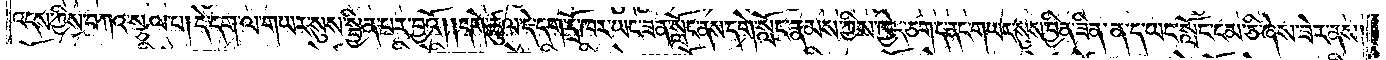འདས་ཀྱིས་བཀའ་སྩལ་པ། དེ་དག་ལ་གཡར་སུས་སྦྱིན་པར་བྱའོ། །དགེ་ཚུལ་དེ་དག་དྲོ་ཁར་ཡང་ཟན་སློང་ནས་དགེ་སློང་རྣམས་ཀྱིས་ཁྱེད་ཅག་ད་ནང་གཡར་སུས་བྱིན་ཟིན་ན་ད་ཡང་སློང་ངམ་ཅི་ཞེས་ཟེར་ནས།
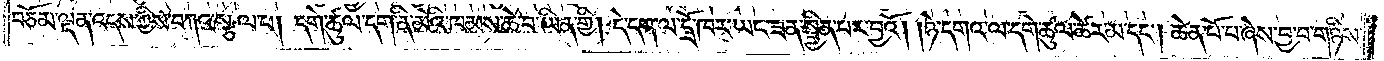བཅོམ་ལྡན་འདས་ཀྱིས་བཀའ་སྩལ་པ། དགེ་ཚུལ་དག་ནི་མེའི་ཁམས་ཆེ་བ་ཡིན་གྱི། དེ་དག་ལ་དྲོ་ཁར་ཡང་ཟན་སྦྱིན་པར་བྱའོ། །ཉེ་དགའ་ལ་དགེ་ཚུལ་ཚེར་མ་དང༌། ཆེན་པོ་པ་ཞེས་བྱ་བ་གཉིས་
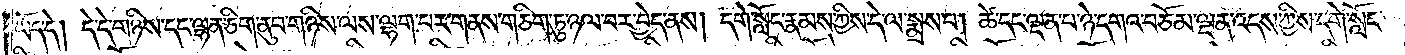ཡོད་དེ། དེ་དེ་གཉིས་དང་ལྷན་ཅིག་ནུབ་གཉིས་ལས་ལྷག་པར་གནས་གཅིག་ཏུ་ཉལ་བར་བྱེད་ནས། དགེ་སློང་རྣམས་ཀྱིས་དེ་ལ་སྨྲས་པ། ཚེ་དང་ལྡན་པ་ཉེ་དགའ་བཅོམ་ལྡན་འདས་ཀྱིས་དགེ་སློང་
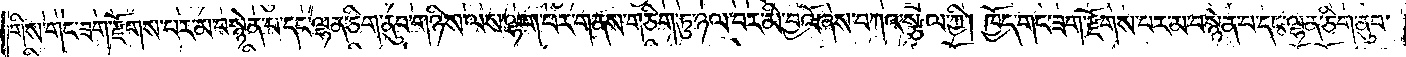གིས་གང་ཟག་རྫོགས་པར་མ་བསྙེན་པ་དང་ལྷན་ཅིག་ནུབ་གཉིས་ལས་ལྷག་པར་གནས་གཅིག་ཏུ་ཉལ་བར་མི་བྱའོ་ཞེས་བཀའ་སྩལ་གྱི། ཁྱོད་གང་ཟག་རྫོགས་པར་མ་བསྙེན་པ་དང་ལྷན་ཅིག་ནུབ་
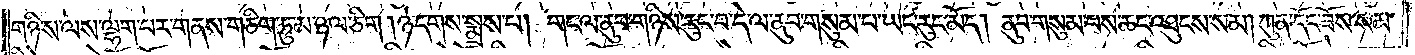གཉིས་ལས་ལྷག་པར་གནས་གཅིག་ཏུ་མ་ཉལ་ཅིག །ཉེ་དགས་སྨྲས་པ། གང་ལ་ནུབ་གཉིས་རུང་བ་དེ་ལ་ནུབ་གསུམ་པ་ཡང་རུང་མོད། ནུབ་གསུམ་པས་ཆང་འཐུངས་སམ། ཀུན་དོང་ཟོས་སམ་
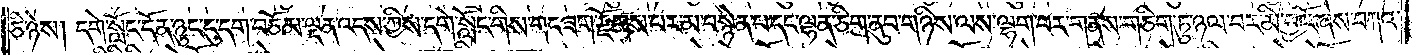ཅི་ཉེས། དགེ་སློང་དོན་ཉུང་ངུ་དག་བཅོམ་ལྡན་འདས་ཀྱིས་དགེ་སློང་གིས་གང་ཟག་རྫོགས་པར་མ་བསྙེན་པ་དང་ལྷན་ཅིག་ནུབ་གཉིས་ལས་ལྷག་པར་གནས་གཅིག་ཏུ་ཉལ་བར་མི་བྱའོ་ཞེས་བཀའ་
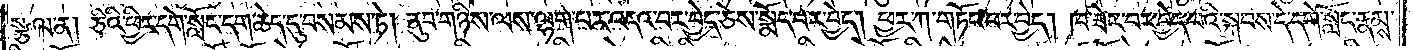སྩལ་ན། ཅིའི་ཕྱིར་དགེ་སློང་དག་ཆེད་དུ་བསམས་ཏེ། ནུབ་གཉིས་ལས་ལྷག་པར་འདའ་བར་བྱེད་ཅེས་སྨོད་པར་བྱེད། ཕྱར་ཀ་གཏོང་བར་བྱེད། ཁ་ཟེར་བར་བྱེད་པའི་སྐབས་དེ་དགེ་སློང་རྣམས་
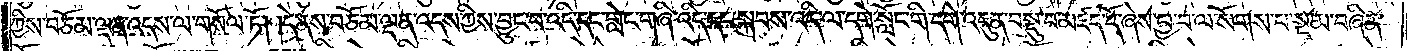ཀྱིས་བཅོམ་ལྡན་འདས་ལ་གསོལ་ཏོ། །དེ་ནས་བཅོམ་ལྡན་འདས་ཀྱིས་བྱུང་བ་འདི་དང་གླེང་གཞི་འདི་དང་སྐབས་འདི་ལ་དགེ་སློང་གི་དགེ་འདུན་བསྡུ་བ་མཛད་དོ་ཞེས་བྱ་བ་ལ་སོགས་པ་སྔ་མ་བཞིན་
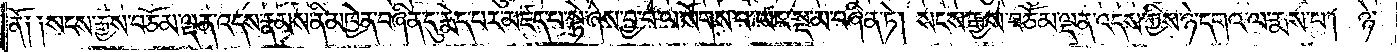ནོ༑ ༑སངས་རྒྱས་བཅོམ་ལྡན་འདས་རྣམས་ནི་མཁྱེན་བཞིན་དུ་རྨེད་པར་མཛད་པ་སྟེ་ཞེས་བྱ་བ་ལ་སོགས་པ་ཡང་སྔ་མ་བཞིན་ཏེ། སངས་རྒྱས་བཅོམ་ལྡན་འདས་ཀྱིས་ཉེ་དགའ་ལ་རྨས་པ། ཉེ་
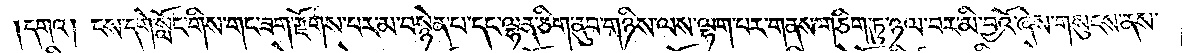དགའ། ངས་དགེ་སློང་གིས་གང་ཟག་རྫོགས་པར་མ་བསྙེན་པ་དང་ལྷན་ཅིག་ནུབ་གཉིས་ལས་ལྷག་པར་གནས་གཅིག་ཏུ་ཉལ་བར་མི་བྱའོ་ཞེས་གསུངས་ནས་
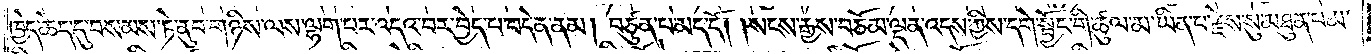ཁྱེད་ཆེད་དུ་བསམས་ཏེ་ནུབ་གཉིས་ལས་ལྷག་པར་འདའ་བར་བྱེད་པ་བདེན་ནམ། བཙུན་པ་མད་དོ། །སངས་རྒྱས་བཅོམ་ལྡན་འདས་ཀྱིས་དགེ་སྦྱོང་གི་ཚུལ་མ་ཡིན་པ་རྗེས་སུ་མཐུན་པ་མ་
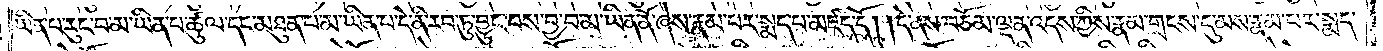ཡིན་པ་རུང་བ་མ་ཡིན་པ་ཚུལ་དང་མཐུན་པ་མ་ཡིན་པ་དེ་ནི་རབ་ཏུ་བྱུང་བས་བྱ་བ་མ་ཡིན་ནོ་ཞེས་རྣམ་པར་སྨད་པ་མཛད་དོ། །དེ་ནས་བཅོམ་ལྡན་འདས་ཀྱིས་རྣམ་གྲངས་དུ་མས་རྣམ་པར་སྨད་
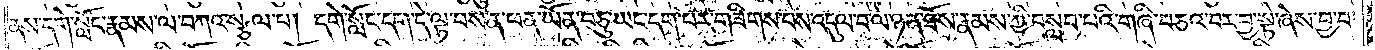ནས་དགེ་སློང་རྣམས་ལ་བཀའ་སྩལ་པ། དགེ་སློང་དག་དེ་ལྟ་བས་ན་ཕན་ཡོན་བཅུ་ཡང་དག་པར་གཟིགས་པས་འདུལ་བ་ལ་ཉན་ཐོས་རྣམས་ཀྱི་བསླབ་པའི་གཞི་བཅའ་བར་བྱ་སྟེ་ཞེས་བྱ་བ་
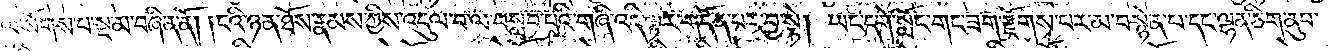ལ་སོགས་པ་སྔ་མ་བཞིན་ནོ། །ངའི་ཉན་ཐོས་རྣམས་ཀྱིས་འདུལ་བ་ལ་བསླབ་པའི་གཞི་འདི་ལྟར་གདོན་པར་བྱ་སྟེ། ཡང་དགེ་སློང་གང་ཟག་རྫོགས་པར་མ་བསྙེན་པ་དང་ལྷན་ཅིག་ནུབ་
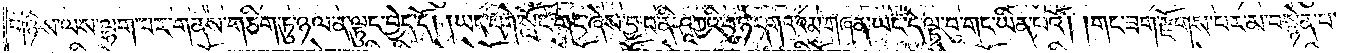གཉིས་ལས་ལྷག་པར་གནས་གཅིག་ཏུ་ཉལ་ན་ལྟུང་བྱེད་དོ། །ཡང་དགེ་སློང་གང་ཞེས་བྱ་བ་ནི་ཤཱཀྱའི་བུ་ཉེ་དགའ་འམ་གཞན་ཡང་དེ་ལྟ་བུ་གང་ཡིན་པའོ། །གང་ཟག་རྫོགས་པར་མ་བསྙེན་པ་
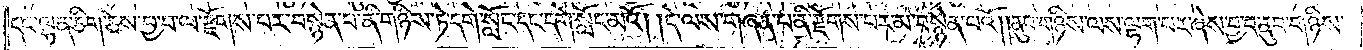དང་ལྷན་ཅིག་ཅེས་བྱ་བ་ལ་རྫོགས་པར་བསྙེན་པ་ནི་གཉིས་ཏེ་དགེ་སློང་དང་དགེ་སློང་མའོ། །དེ་ལས་གཞན་པ་ནི་རྫོགས་པར་མ་བསྙེན་པའོ། །ནུབ་གཉིས་ལས་ལྷག་པར་ཞེས་བྱ་བ་ནུབ་གཉིས་
